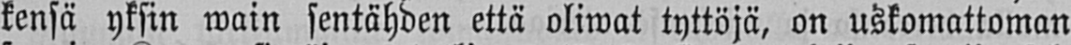kensä yksin wain sentähden että oliwat tyttöjä, on uskomattoman
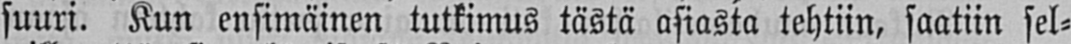suuri. Kun ensimäinen tutkimus tästä asiasta tehtiin, saatiin sel-
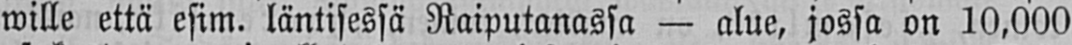wille että esim. läntisessä Raiputanassa — alue, jossa on 10,000
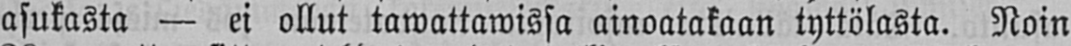asukasta — ei ollut tawattawissa ainoatakaan tyttölasta. Noin
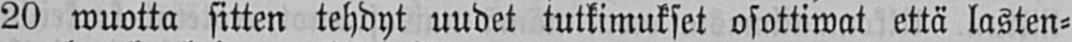20 wuotta sitten tehdyt uudet tutkimukset osottiwat että lasten-
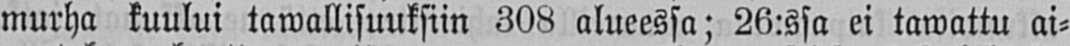murha kuului tawallisuuksiin 308 alueessa; 26:ssa ei tawattu ai-
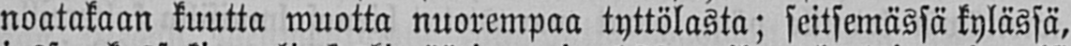noatakaan kuutta wuotta nuorempaa tyttölasta; seitsemässä kylässä,
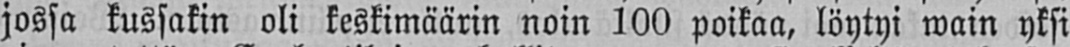jossa kussakin oli keskimäärin noin 100 poikaa, löytyi wain yksi
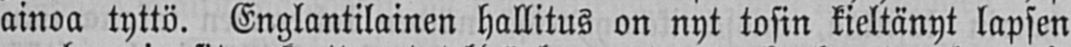ainoa tyttö. Englantilainen hallitus on nyt tosin kieltänyt lapsen
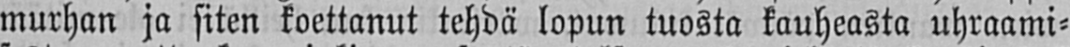murhan ja siten koettanut tehdä lopun tuosta kauheasta uhraami-
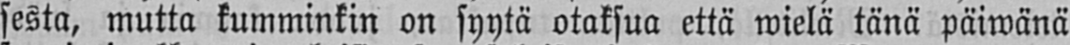sesta, mutta kumminkin on syytä otaksua että wielä tänä päiwänä
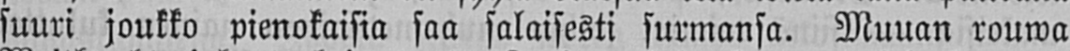suuri joukko pienokaisia saa salaisesti surmansa. Muuan rouwa
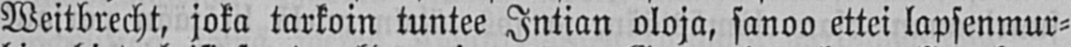Weitbrecht, joka tarkoin tuntee Intian oloja, sanoo ettei lapsenmur-
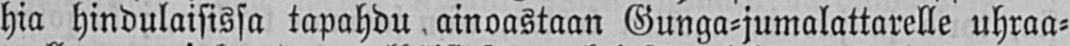hia hindulaisissa tapahdu ainoastaan Gunga-jumalattarelle uhraa-
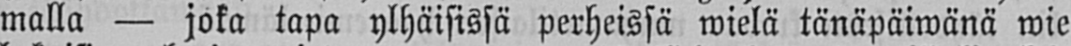malla — joka tapa ylhäisissä perheissä wielä tänäpäiwänä wie
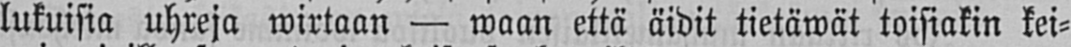lukuisia uhreja wirtaan — waan että äidit tietäwät toisiakin kei-
